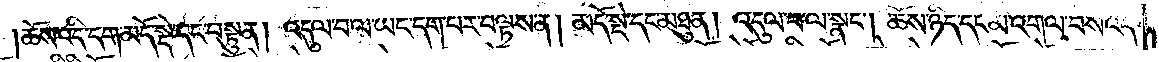ཆོས་འདི་དག་མདོ་སྡེ་དང་བསྟུན། འདུལ་བ་ལ་ཡང་དག་པར་བལྟས་ན། མདོ་སྡེ་དང་མཐུན། འདུལ་བ་ལ་སྣང༌། ཆོས་ཉིད་དང་མི་འགལ་བས་འདི་
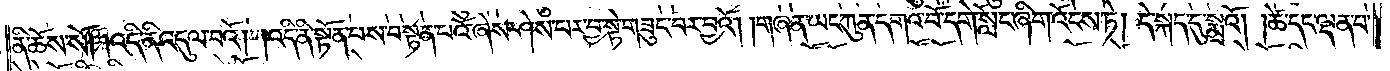ནི་ཆོས་སོ། །འདི་ནི་འདུལ་བའོ། །འདི་ནི་སྟོན་པས་བསྟན་པའོ་ཞེས་ཤེས་པར་བྱ་སྟེ་གཟུང་བར་བྱའོ། །གཞན་ཡང་ཀུན་དགའ་བོ་དགེ་སློང་ཞིག་འོངས་ཏེ། དེ་སྐད་དུ་སྨྲའོ། །ཚེ་དང་ལྡན་པ་
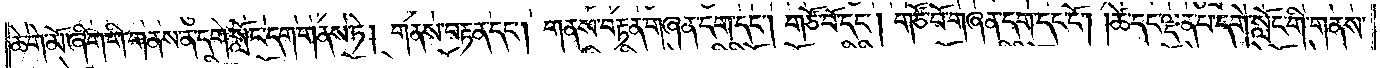ཆེ་གེ་མོ་ཞིག་གི་གནས་ན་དགེ་སློང་དག་གནས་ཏེ། གནས་བརྟན་དང༌། གནས་བརྟན་གཞན་དག་དང༌། གཙོ་བོ་དང༌། གཙོ་བོ་གཞན་དག་དང་ངོ༌། །ཚེ་དང་ལྡན་པ་དགེ་སློང་གི་གནས་
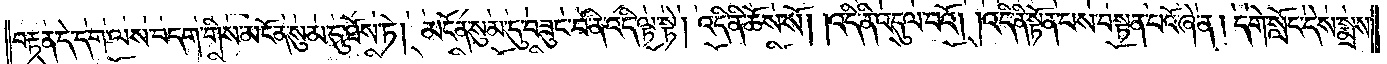བརྟན་དེ་དག་ལས་བདག་གིས་མངོན་སུམ་དུ་ཐོས་ཏེ། མངོན་སུམ་དུ་བཟུང་བ་ནི་འདི་ལྟ་སྟེ། འདི་ནི་ཆོས་སོ། །འདི་ནི་འདུལ་བའོ། །འདི་ནི་སྟོན་པས་བསྟན་པའོ་ཞེ་ན། དགེ་སློང་དེས་སྨྲས་
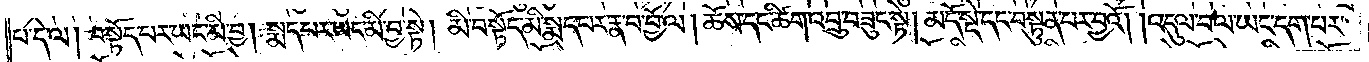པ་དེ་ལ། བསྟོད་པར་ཡང་མི་བྱ། སྨད་པར་ཡང་མི་བྱ་སྟེ། མི་བསྟོད་མི་སྨད་བར་རྣ་བ་བྱོལ། ཆོས་དང་ཚིག་འབྲུ་བཟུང་སྟེ། མདོ་སྡེ་དང་བསྟུན་པར་བྱའོ། །འདུལ་བལ་ཡང་དག་པར་
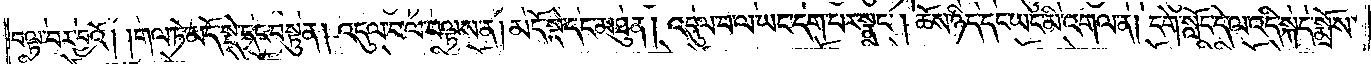བལྟ་བར་བྱའོ། །གལ་ཏེ་མདོ་སྡེ་དང་བསྟུན། འདུལ་བ་ལ་བལྟས་ན། མདོ་སྡེ་དང་མཐུན། འདུལ་བ་ལ་ཡང་དག་པར་སྣང༌། ཆོས་ཉིད་དང་ཡང་མི་འགལ་ན། དགེ་སློང་དེ་ལ་འདི་སྐད་སྨྲོས་
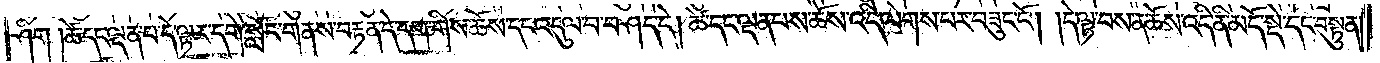ཤིག །ཚེ་དང་ལྡན་པ་དེ་ལྟར་དགེ་སློང་གནས་བརྟན་དེ་དག་གིས་ཆོས་དང་འདུལ་བ་བཤད་དེ། ཚེ་དང་ལྡན་པས་ཆོས་འདི་ལེགས་པར་བཟུང་ངོ༌། །དེ་ལྟ་བས་ན་ཆོས་འདི་ནི་མདོ་སྡེ་དང་བསྟུན།
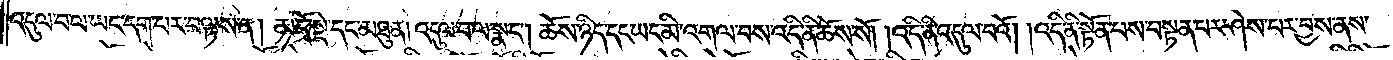འདུལ་བ་ལ་ཡང་དག་པར་བལྟས་ན། མདོ་སྡེ་དང་མཐུན། འདུལ་བ་ལ་སྣང༌། ཆོས་ཉིད་དང་ཡང་མི་འགལ་བས་འདི་ནི་ཆོས་སོ། །འདི་ནི་འདུལ་བའོ། །འདི་ནི་སྟོན་པས་བསྟན་པར་ཤེས་པར་བྱས་ནས་
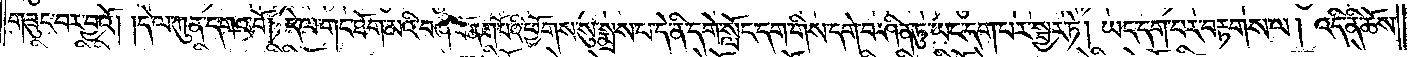གཟུང་བར་བྱའོ། །དེ་ལ་ཀུན་དགའ་བོ། དེ་ལ་གང་ཐོག་མའི་བཞི་པོ་ནག་པོའི་ཕྱོགས་སུ་སྨྲས་པ་དེ་ནི་དགེ་སློང་དག་གིས་དགེ་བ་ཤིན་ཏུ་ཡང་དག་པར་སྦྱར་ཏེ། ཡང་དག་པར་བརྟགས་ལ། འདི་ནི་ཆོས་
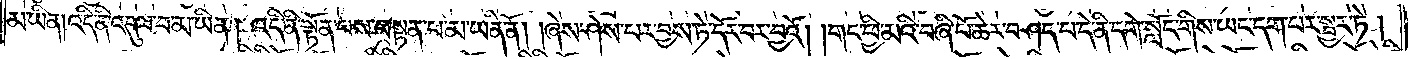མ་ཡིན། འདི་ནི་འདུལ་བ་མ་ཡིན། འདི་ནི་སྟོན་པས་བསྟན་པ་མ་ཡིན་ནོ། །ཞེས་ཤེས་པར་བྱས་ཏེ་དོར་བར་བྱའོ། །གང་ཕྱི་མའི་བཞི་པོ་ཆེར་བཤད་པ་དེ་ནི་དགེ་སློང་གིས་ཡང་དག་པར་སྦྱར་ཏེ།
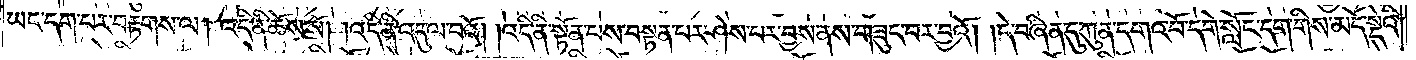ཡང་དག་པར་བརྟགས་ལ། འདི་ནི་ཆོས་སོ། །འདི་ནི་འདུལ་བའོ། །འདི་ནི་སྟོན་པས་བསྟན་པར་ཤེས་པར་བྱས་ནས་གཟུང་བར་བྱའོ། །དེ་བཞིན་དུ་ཀུན་དགའ་བོ་དགེ་སློང་དག་གིས་མདོ་སྡེའི་
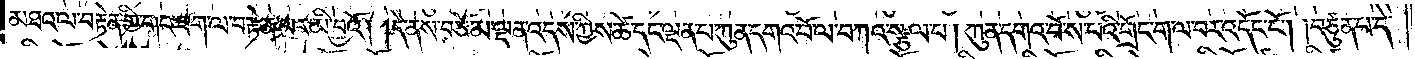མཐའ་ལ་བརྟེན་གྱི་གང་ཟག་ལ་བརྟེན་པར་མི་བྱའོ། །དེ་ནས་བཅོམ་ལྡན་འདས་ཀྱིས་ཚེ་དང་ལྡན་པ་ཀུན་དགའ་བོ་ལ་བཀའ་སྩལ་པ། ཀུན་དགའ་བོས་པའི་གྲོང་གལ་བར་འདོང་ངོ༌། །བཙུན་པ་དེ་
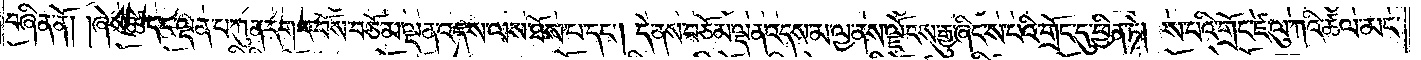བཞིན་ནོ། །ཞེས་ཚེ་དང་ལྡན་པ་ཀུན་དགའ་བོས་བཅོམ་ལྡན་འདས་ལས་ཐོས་པ་དང༌། དེ་ནས་བཅོམ་ལྡན་འདས་མ་ལྱ་ནས་ལྗོངས་རྒྱུ་ཞིང་ས་པའི་གྲོང་དུ་ཕྱིན་ཏེ། ས་པའི་གྲོང་ཛ་ལུ་ཀའི་ཚལ་མང་
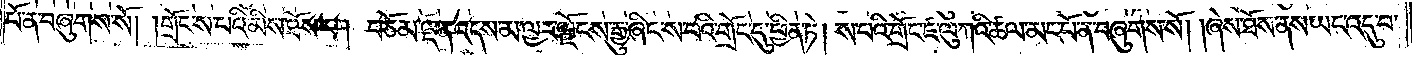པོ་ན་བཞུགས་སོ། །གྲོང་ས་པའི་མིས་ཐོས་པ། བཅོམ་ལྡན་འདས་མ་ལྱར་ལྗོངས་རྒྱུ་ཞིང་ས་པའི་གྲོང་དུ་ཕྱིན་ཏེ། ས་བའི་གྲོང་ཛ་ལུ་ཀའི་ཚལ་མང་པོ་ན་བཞུགས་སོ། །ཞེས་ཐོས་ནས་ཡང་འདུ་བ་
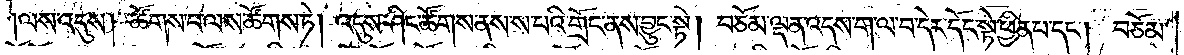ལས་འདུས། ཚོགས་པ་ལས་ཚོགས་ཏེ། འདུས་ཤིང་ཚོགས་ནས་ས་པའི་གྲོང་ནས་བྱུང་སྟེ། བཅོམ་ལྡན་འདས་ག་ལ་བ་དེར་དོང་སྟེ་ཕྱིན་པ་དང༌། བཅོམ་
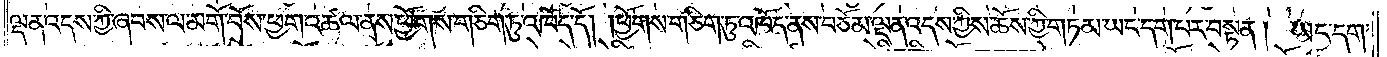ལྡན་འདས་ཀྱི་ཞབས་ལ་མགོ་བོས་ཕྱག་འཚལ་ནས་ཕྱོགས་གཅིག་ཏུ་འཁོད་དོ། །ཕྱོགས་གཅིག་ཏུ་འཁོད་ནས་བཅོམ་ལྡན་འདས་ཀྱིས་ཆོས་ཀྱི་གཏམ་ཡང་དག་པར་བསྟན། ཡང་དག་
